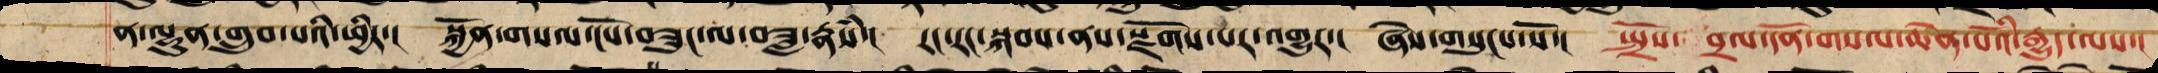ན་ལྷུན་གྱིས་གྲུབ་པའི་ཕྱིར་། སྐྱོན་བསལ་ངོས་བཟུང་ལ་བཟླ་རྣྃས་། རང་རང་སྐབས་ནས་རྫོགས་པར་འགྱུར་། ཞེས་གསུངས་སོ་། སྤྲོས་བྲལ་དོན་གསལ་ཆེན་པོའི་རྒྱུད་ལས་།
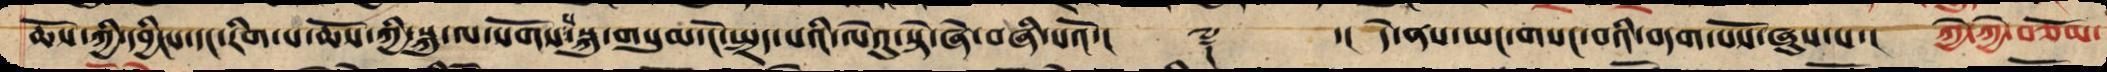ཆོས་ཀྱི་དབྱིངས་དང་རིག་པ་ཆོས་ཀྱི་སྐུ་ལ་སོགས་པ་སྐུ་གསུམ་ངོ་སྤྲོད་པའི་ལེའུ་སྟེ་ཞེ་བཞི་པའོ་།། ༈ ་། དེ་ནས་ཡང་གསང་བའི་བདག་པོས་ཞུས་པ་། ཀྱེ་ཀྱེ་བཅོམ་
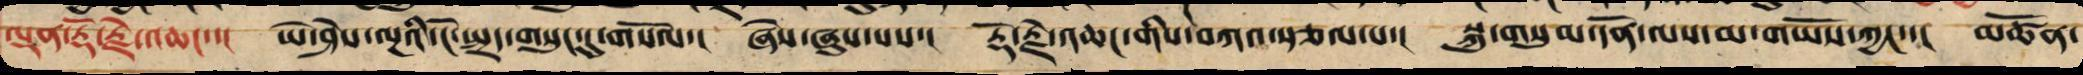ལྡན་རྡོ་རྗེ་འཆང་། ཡེ་ཤེས་ལྔ་ཡི་ངོ་སྤྲོད་གསུང་དུ་གསོལ་། ཞེས་ཞུས་པས་། རྡོ་རྗེ་འཆང་གིས་བཀའ་སྩལ་པ་། སྐུ་གསུམ་དོན་ལས་མ་གཡོས་ཀྱང་་། མཚོན་
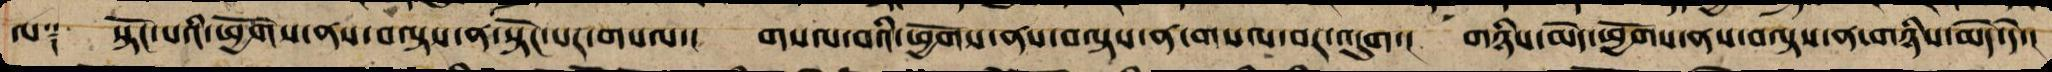ལ༑ སྟོང་པའི་ཕྱོགས་ནས་བལྟས་ན་སྟོང་པར་གསལ་། གསལ་བའི་ཕྱོགས་ནས་བལྟས་ན་གསལ་བར་འདུག་། གཉིས་མེད་ཕྱོགས་ནས་བལྟས་ན་གཉིས་མེད་དེ་།
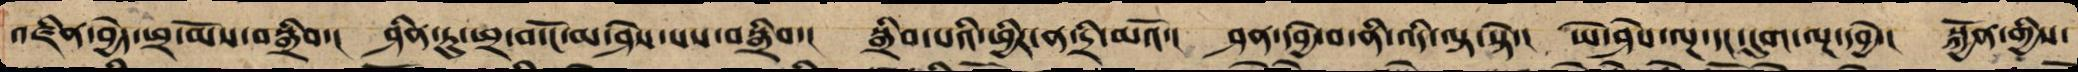འཛིན་བྱེད་ཕྲ་མོས་བསྒྲིབ་། ཤིན་དུ་ཕྲ་བ་ངོ་མ་ཤེས་པས་བསྒྲིབ་། སྒྲིབ་པའི་ཕྱིར་ན་དྲི་མའོ་། ཤན་དབྱེ་བ་ནི་འདི་ལྟ་སྟེ་། ཡེ་ཤེས་ལྔ་དང་དུག་ལྔར་དབྱེ་། སྐྱོན་གྱིས་
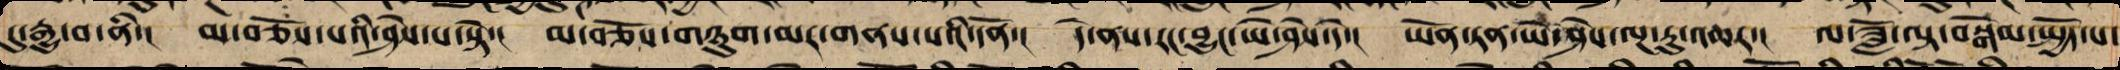དུ་གྱུར་པ་ནི་། མ་བཅོས་པའི་ཤེས་པ་སྟེ་། མ་བཅོས་གཉུག་མར་གནས་པའི་དོན་། དེ་ནི་རང་བྱུང་ཡེ་ཤེས་ཏེ་། ཡོན་ཏན་ཡེ་ཤེས་ལྔ་རུ་འཆར་། ལ་ཟློ་ལྟ་བསྒོམ་སྤྱོད་པ་
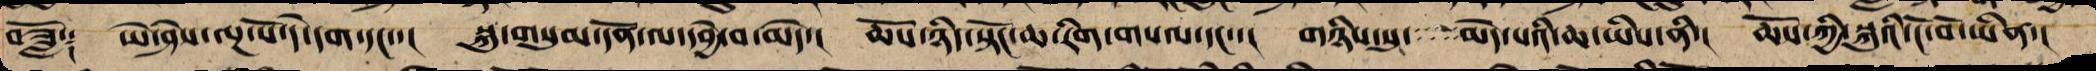བཟློ༑ ཡེ་ཤེས་ལྔ་པོ་དེ་དག་དང་་། སྐུ་གསུམ་དོན་ལ་དབྱེ་བ་མེད་། ཆོས་ཉིད་སྟོང་ཆ་རིག་གསལ་དང་་། གཉིས་སུ་་་་མེད་པའི་ཆ་ཡིས་ནི་། ཆོས་ཀྱི་སྐུའི་ངོ་བོ་ཡིན་།
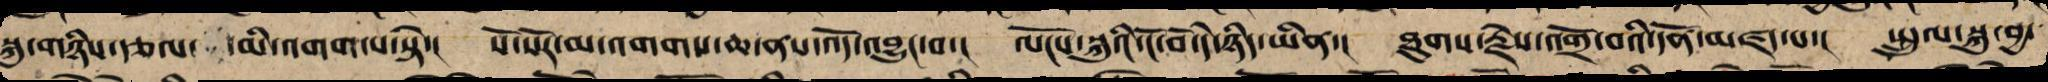སྐུ་གཉིས་རྩལ་མི་འགག་པ་སྟེ་། སོ་སོར་མ་འགགས་ཆ་ནས་འོད་འབྱུང་བ་། ལོངས་སྐུའི་ངོ་བོ་དེ་ཉིད་ཡིན་། ཐུགས་རྗེས་འགྲོ་བའི་དོན་མཛད་པ་། སྤྲུལ་སྐུ་བྱ་
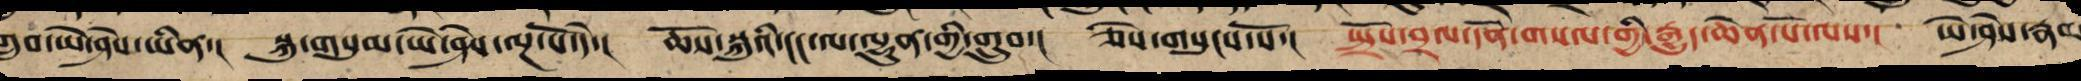གྲུབ་ཡེ་ཤེས་ཡིན་། སྐུ་གསུམ་ཡེ་ཤེས་ལྔ་པོ་དེ་། ཆོས་སྐུའི་ངང་ལ་ལྷུན་གྱིས་གྲུབ་། ཅེས་གསུངས་སོ་། སྤྲོས་བྲལ་དོན་གསལ་གྱི་རྒྱུད་ཆེན་པོ་ལས་། ཡེ་ཤེས་རྣམ
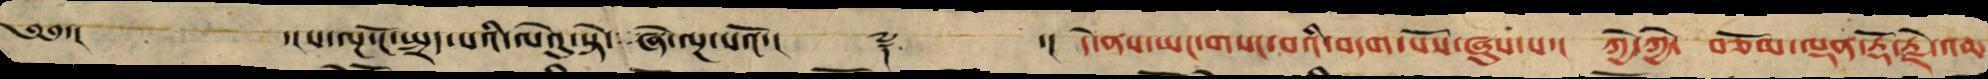༄༅་།   ་།པ་ལྔ་ངོ་སྤྲོད་པའི་ལེའུ་སྟེ་ཞེ་ལྔ་པའོ་།། ༈ ་།། དེ་ནས་ཡང་གསང་བའི་བདག་པོས་ཞུས་པ་། ཀྱེ་ཀྱེ་ བཅོམ་ལྡན་རྡོ་རྗེ་འཆ
